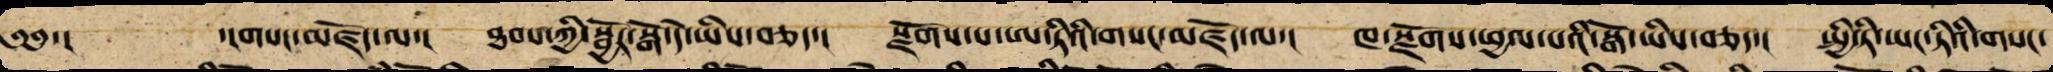༄༅་། ་།གསང་མཛོད་ལ་། ཐབས་ཀྱི་སྦྱོར་སྒོ་དེ་ཡིས་བཅད་། སྫོགས་པ་ཨ་ཏིའི་གསང་མཛོད་ལ་། ཁ་སྫོགས་ཕྱལ་པའི་སྒོ་ཡིས་བཅད་། སྤྱི་ཏི་ཡང་ཏིའི་གསང་
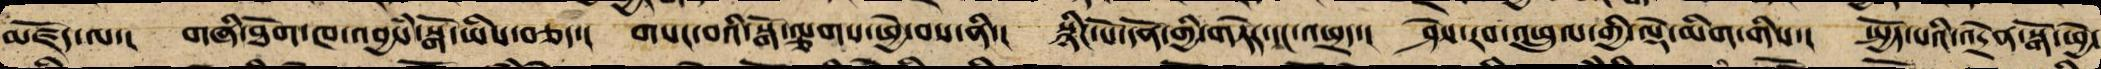མཛོད་ལ་། གཞི་ཐོག་ཁ་འབྱཾས་སྒོ་ཡིས་བཅད་། གསང་བའི་སྒོ་ལྕགས་ཕྱེ་བས་ནི་། སྙིང་པོ་དོན་གྱི་གཏེར་དང་འཕྲད་། ཤེས་རབ་འཕྲུལ་གྱི་ལྡེ་མིག་གིས་། སྤྱོད་པའི་འདྲེན་སྒོ་ཕྱེ་
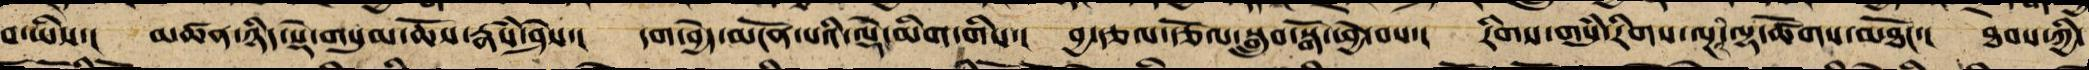བ་ཡིས་། མཚན་ཉིད་སྡེ་གསུམ་ཆོས་རྣཾས་ཤེས་། དག་བྱེད་མངོན་པའི་ལྡེ་མིག་གིས་། བྱ་རྩལ་རྩོལ་སྒྲུབ་སྒོ་ཕྱེ་བས་། རིགས་གསུཾ་རིགས་ལྔའི་ལྷ་ཚོགས་མཐོང་། ཐབས་ཀྱི་
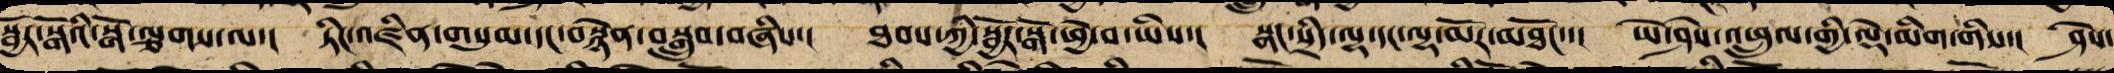སྦྱོར་སྒོའི་སྒོ་ལྕགས་ལ་། ཏིང་འཛིན་གསུམ་དང་བསྙེན་བསྒྲུབ་བཞིས་། ཐབས་ཀྱི་སྦྱོར་སྒོ་ཕྱེ་བ་ཡིས་། སྣང་སྲིད་ལྷ་དང་ལྷ་མོར་མཐོང་་། ཡེ་ཤེས་འཕྲུལ་གྱི་ལྡེ་མིག་གིས་། ཤེས་
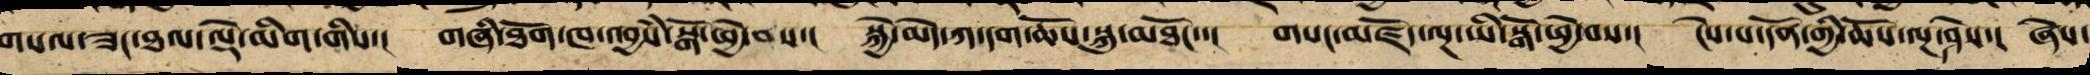གསལ་ཟང་ཐལ་ལྡེ་མིག་གིས་། གཞི་ཐོག་ཁ་འབྱཾས་སྒོ་ཕྱེ་བས་། སྐྱེ་མེད་ཀ་དག་ཆོས་སྐུ་མཐོང་་། གསང་མཛོད་ལྔ་ཡི་སྒོ་ཕྱེ་བས་། ངེས་པ་དོན་གྱི་ཆོས་ལྔ་ཤེས་། ཞེས་
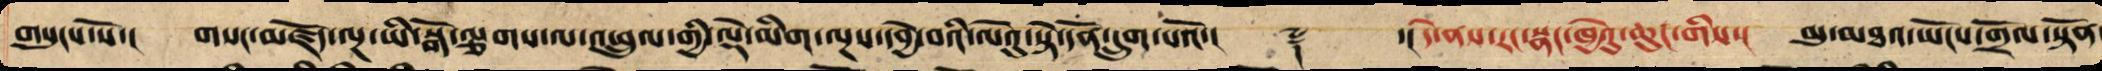གསུངས་སོ་། གསང་མཛོད་ལྔ་ཡི་སྒོ་ལྕགས་ལ་འཕྲུལ་གྱི་ལྡེ་མིག་ལྔས་དབྱེ་བའི་ལེའུ་སྟེ་དོན་དྲུག་པའོ་།། ༈ ་།།དེ་ནས་རང་སྣང་ཁྱེའུ་ཆུང་གིས་། མུ་མཐའ་ཡོངས་གྲོལ་སྟོན
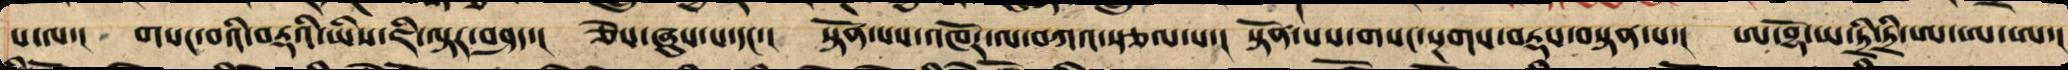པ་ལ་། གསང་བའི་བརྡའི་ཡིས་ཇི་ལྟར་བཤད་། ཅེས་ཞུས་པ་དང་། སྟོན་པས་འཁོར་ལ་བཀའ་རྩལ་པ་། སྟོན་པས་གསང་སྔགས་བརྡས་བསྟན་པ་། ཨ་བྷོ་ཡ་ཏྲཱི་ཏྲི་ཨ་ཨ་ཨ་།
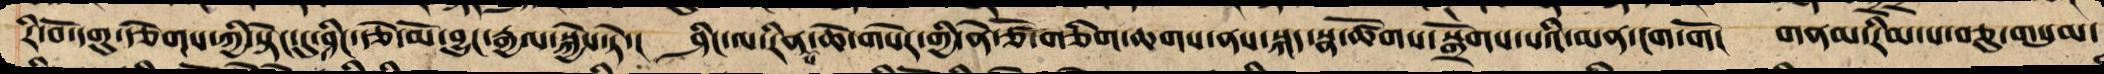རི་བོ་དགུ་བརྩེགས་ཀྱི་སྟེང་དུ་ཤིང་རྩེ་མོ་བྱུང་རྒྱལ་སྐྱེས་ཏེ་། ཤིང་དེ་ལ་རིན་ཆེ་གསེར་གྱི་ནེ་ཙོ་གཅིག་ཆགས་ནས་སྐད་སྣ་ཚོགས་སྒྲོགས་པའི་མན་ངག་གོ། གནམ་རིམ་པ་བཅུ་གསུམ་
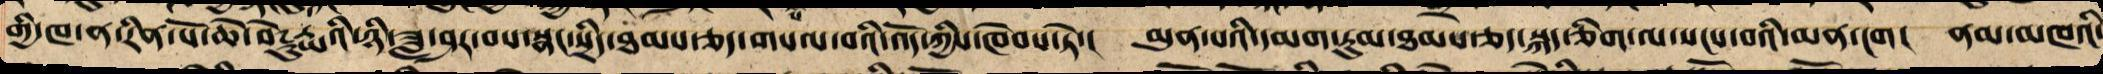གྱི་ཁ་ན་རིན་པོ་ཆེ་བཻ་ཌཱུརྱའི་ཉི་ཟླ་ཤར་བས་སྣང་སྲིད་ཐམས་ཅད་གསལ་བའི་འོད་ཀྱིས་ཁེབས་ཏེ་། མུན་པའི་སྨག་རུམ་ཐམས་ཅད་སྐད་ཅིག་ལ་སངས་པའི་མན་ངག། ནམ་མཁའི་
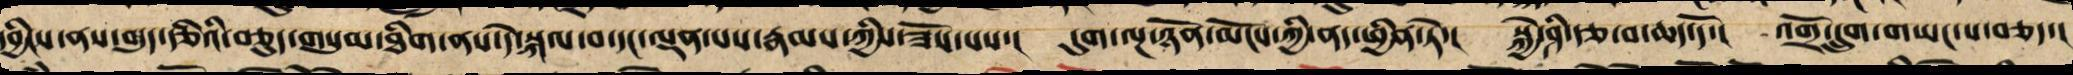དབྱིངས་ནས་བདུད་རྩིའི་བཅུད་གསུམ་ཐིགས་ནས་དེ་སྐལ་བ་དང་ལྡན་པ་རྣམས་ཀྱིས་ཟོས་པས་། དུག་ལྔ་ཉོན་མོངས་ཀྱི་ནད་ཕྱིན་ཏེ་། སྐྱེ་ཤིའི་རྩ་བ་ཆོད་དོ་། འགྲོ་དྲུག་གཡང་ས་བཅད་།
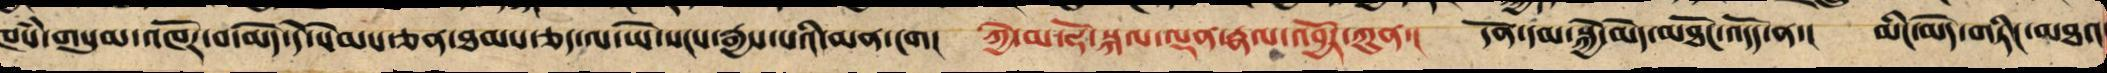ཁཾས་གསུམ་འཁོར་བ་མེད་དེ་སེམས་ཅན་ཐམས་ཅད་ཡེ་སངས་རྒྱས་པའི་མན་ངག། ཀྱེ་མ་ཧོ་སྐལ་ལྡན་རྣལ་འབྱོར་ཀུན་། དོན་དམ་སྐྱེ་མེད་མཐོང་འདོད་ན་། མིང་མེད་གཏིང་མཐའ
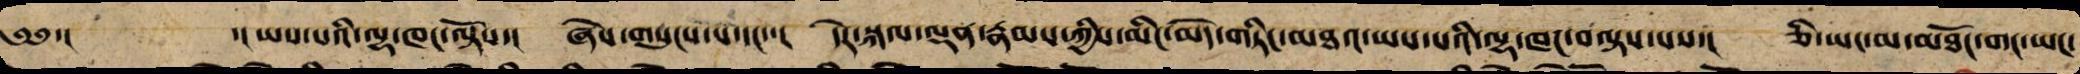༄༅་། ་།ཡས་པའི་ལྷ་ཁང་ལྟོས་། ཞེས་གསུངས་པ་དང་་། དེར་སྐལ་ལྡན་རྣམས་ཀྱིས་མིང་མེད་གཏིང་མཐའ་ཡས་པའི་ལྷ་ཁང་བལྟས་པས་། ཅི་ཡང་མ་མཐོང་གང་ཡང་
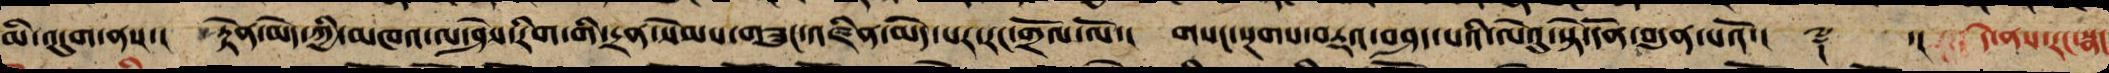མི་འདུག་ནས་། རྟེན་མེད་ཀྱི་མཁའ་འ་ཤེས་རིག་གི་དྲན་སེམས་གཟུང་འཛིན་མེད་པར་རང་གྲོལ་ལོ་། གསང་སྔགས་བརྡས་བཤད་པའི་ལེའུ་སྟེ་དོན་བདུན་པའོ་།། ༈ ་།། དེ་ནས་རང་སྣང་
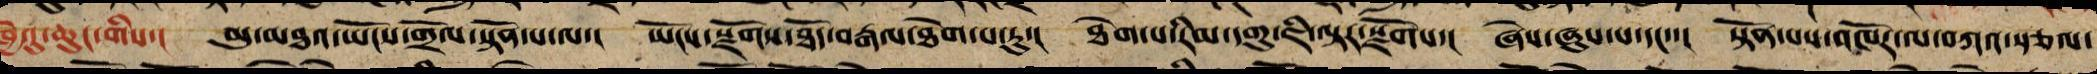ཁྱེའུ་ཆུང་གིས་། མུ་མཐའ་ཡོངས་གྲོལ་སྟོན་པ་ལ་། ཡོངས་སྫོགས་ཐོད་བརྒལ་ཐེག་པ་རུ་། ཐེག་པ་རིམ་དགུ་ཇི་ལྟར་སྫོགས་། ཞེས་ཞུས་པ་དང་་། སྟོན་པས་འཁོར་ལ་བཀའ་སྩལ་
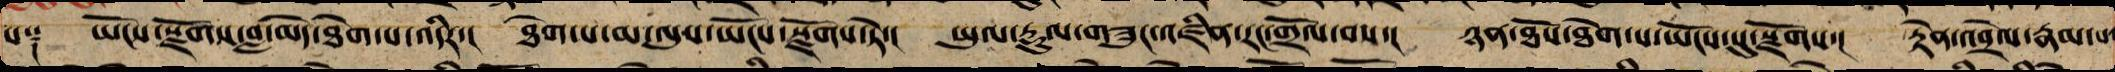པ༑ ཡོངས་སྫོགས་བླ་མེད་ཐེག་པ་འདིར་། ཐེག་པ་མ་ལུས་ཡོངས་སྫོགས་ཏེ་། ཡུལ་རྡུལ་གཟུང་འཛིན་རང་གྲོལ་བས་། ཉན་ཐོས་ཐེག་པ་ཡོངས་སུ་སྫོགས་། རྟེན་འབྲེལ་རྣམ་པ་
